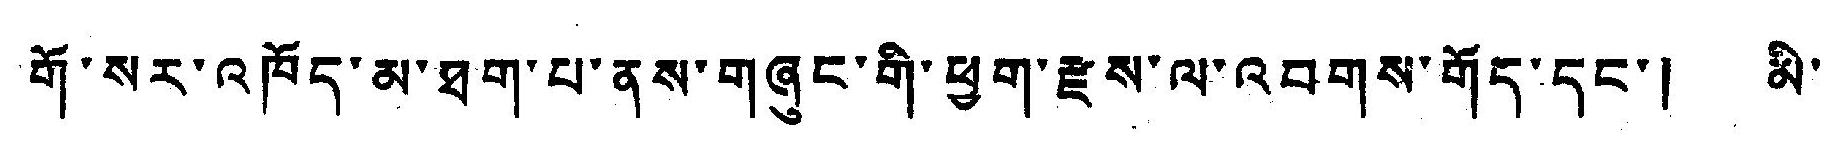གོ་སར་འཁོད་མ་ཐག་པ་ནས་གཞུང་གི་ཕྱག་རྫས་ལ་འབགས་གོད་དང་། མི་
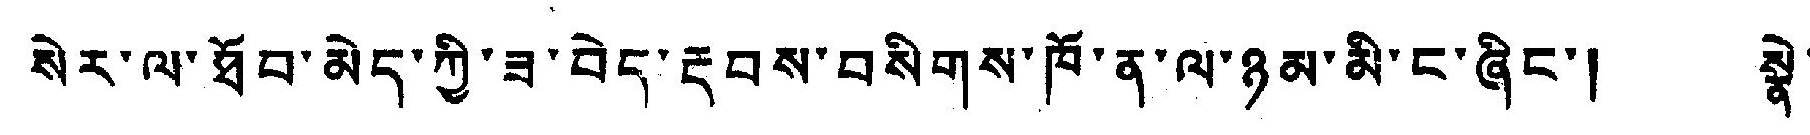སེར་ལ་ཐོབ་མེད་ཀྱི་ཟ་བྱེད་རྡབས་བསིགས་ཁོ་ན་ལ་ཉམ་མི་ང་ཞིང་། སྣེ་
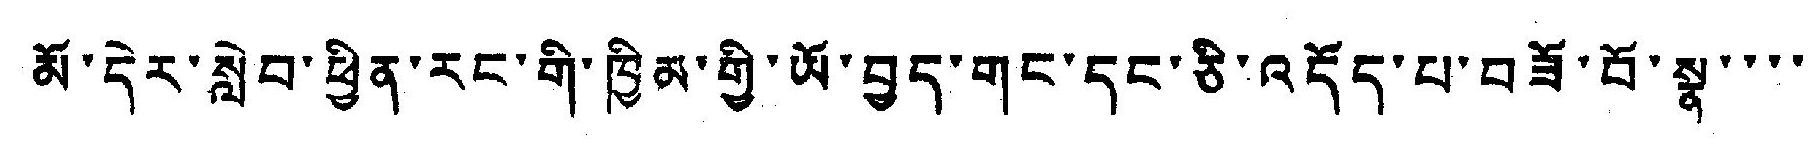མོ་དེར་སླེབ་ཕྱིན་རང་གི་ཁྱིམ་གྱི་ཡོ་བྱད་གང་དང་ཅི་འདོད་པ་བཟོ་བོ་སྣ་་་་
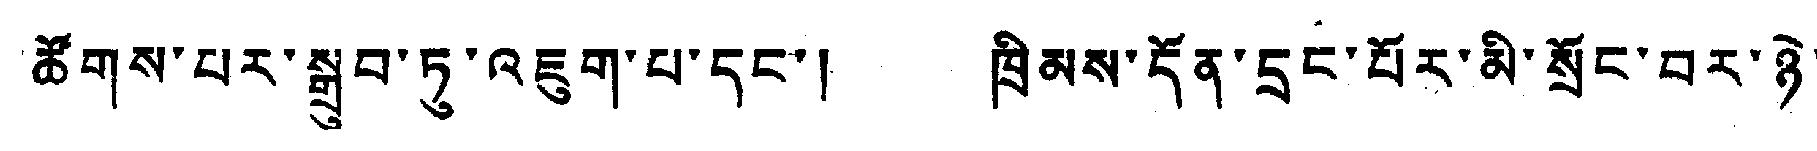ཚོགས་པར་སྒྲུབ་ཏུ་འཇུག་པ་དང་། ཁྲིམས་དོན་དྲང་པོར་མི་སྲོང་བར་ཉེ་
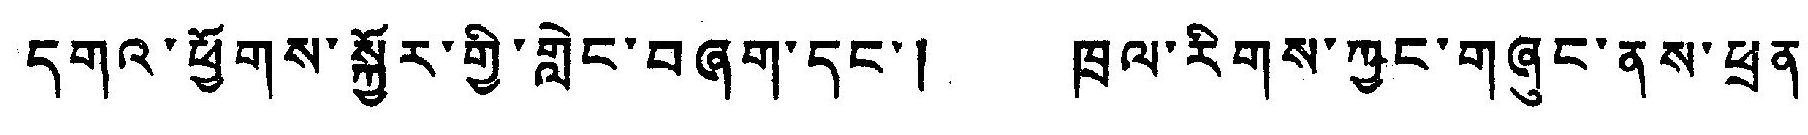དགའ་ཕྱོགས་སྐྱོར་གྱི་གླེང་བཞག་དང་། ཁྲལ་རིགས་ཀྱང་གཞུང་ནས་ཕྲན་
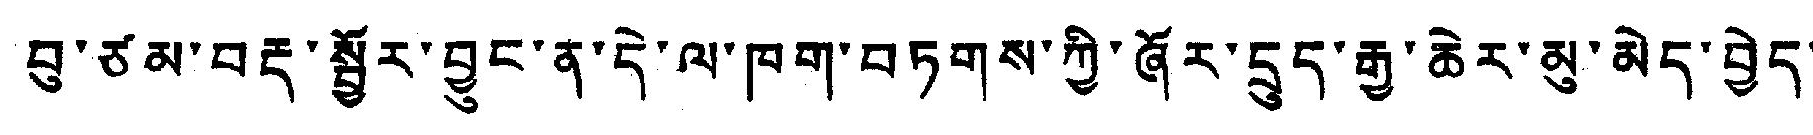བུ་ཙམ་བརྡ་སྦྱོར་བྱུང་ན་དེ་ལ་ཁག་བཏགས་ཀྱི་ཞོར་དྲུད་རྒྱ་ཆེར་མུ་མེད་བྱེད་
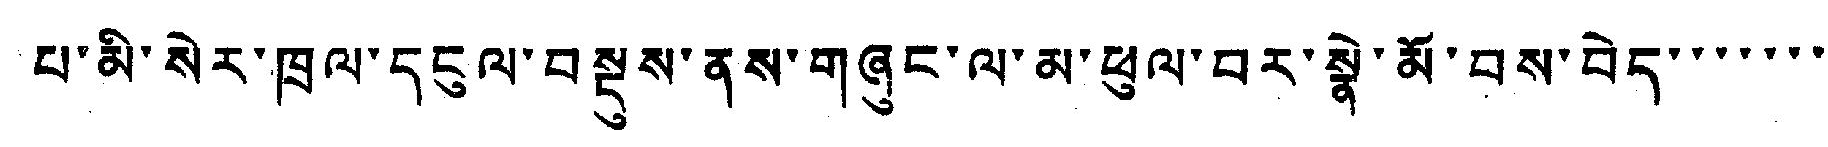པ་མི་སེར་ཁྲལ་དངུལ་བསྡུས་ནས་གཞུང་ལ་མ་ཕུལ་བར་སྣེ་མོ་བས་བེད་་་་་་་
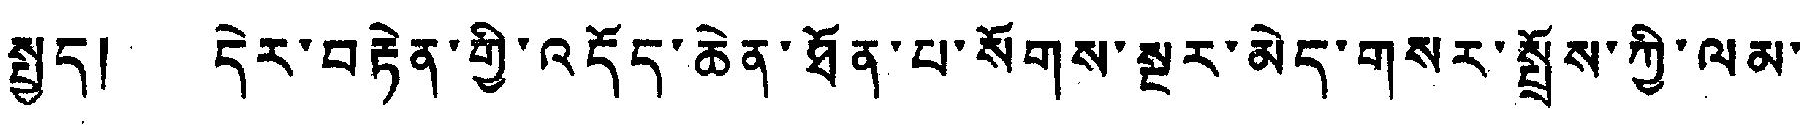སྤྱད། དེར་བརྟེན་གྱི་འདོད་ཆེན་ཐོན་པ་སོགས་སྔར་མེད་གསར་སྤྲོས་ཀྱི་ལམ་
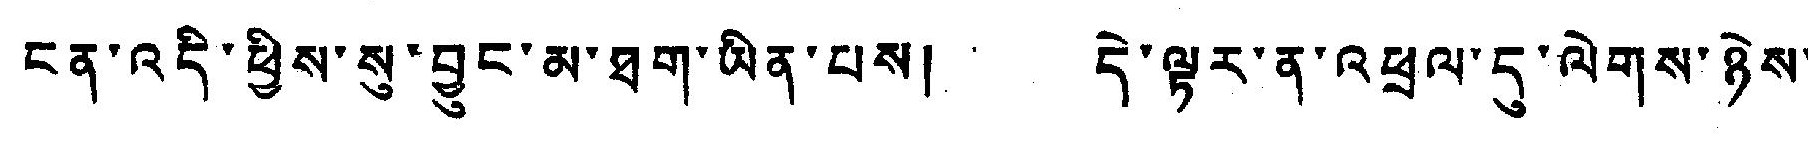ངན་འདི་ཕྱིས་སུ་བྱུང་མ་ཐག་ཡིན་པས། དེ་ལྟར་ན་འཕྲལ་དུ་ལེགས་ཉེས་
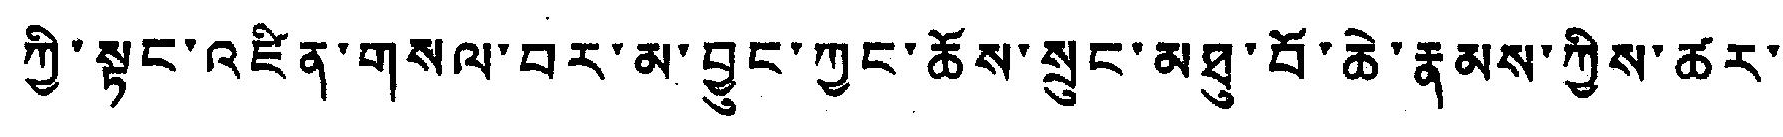ཀྱི་སྟང་འཛིན་གསལ་བར་མ་བྱུང་ཀྱང་ཆོས་སྲུང་མཐུ་བོ་ཆེ་རྣམས་ཀྱིས་ཚར་་
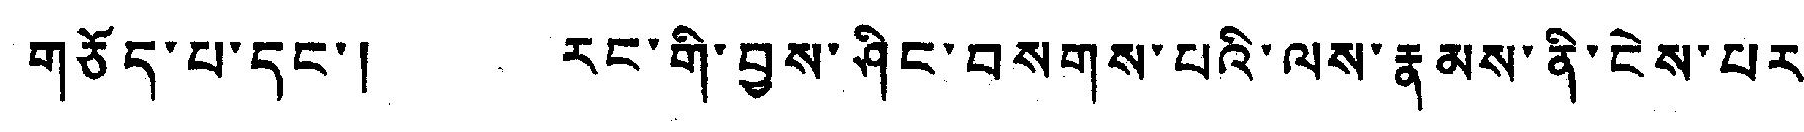གཅོད་པ་དང་། རང་གི་བྱས་ཤིང་བསགས་པའི་ལས་རྣམས་ནི་ངེས་པར་
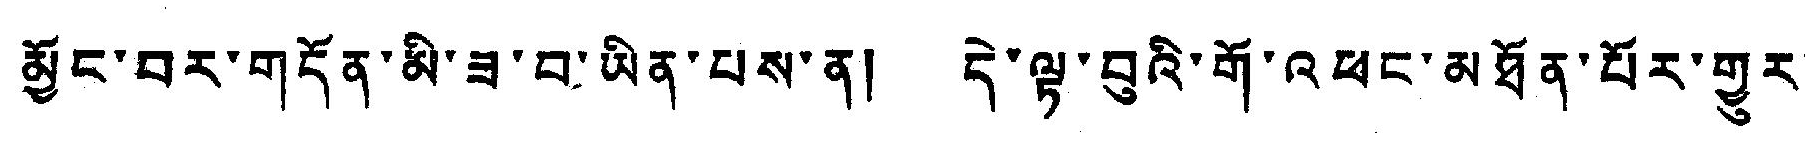མྱོང་བར་གདོན་མི་ཟ་བ་ཡིན་པས་ན། དེ་ལྟ་བུའི་གོ་འཕང་མཐོན་པོར་གྱུར་
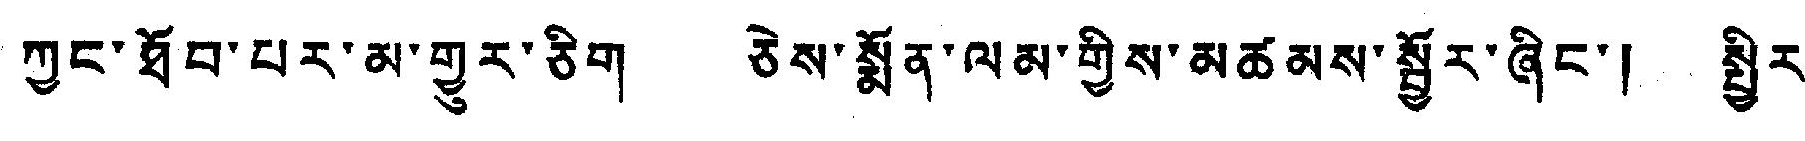ཀྱང་ཐོབ་པར་མ་གྱུར་ཅིག ཅེས་སྨོན་ལམ་གྱིས་མཚམས་སྦྱོར་ཞིང་། སྤྱིར་
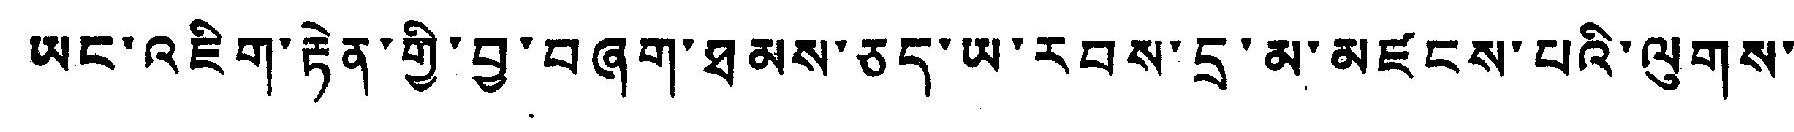ཡང་འཇིག་རྟེན་གྱི་བྱ་བཞག་ཐམས་ཅད་ཡ་རབས་དྲ་མ་མཛངས་པའི་ལུགས་་
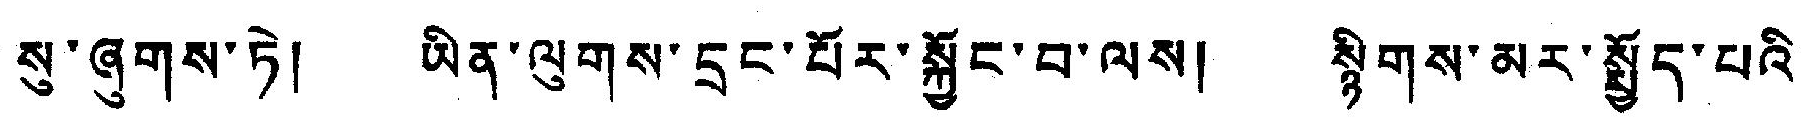སུ་ཞུགས་ཏེ། ཡིན་ལུགས་དྲང་པོར་སྐྱོང་བ་ལས། སྙིགས་མར་སྤྱོད་པའི་
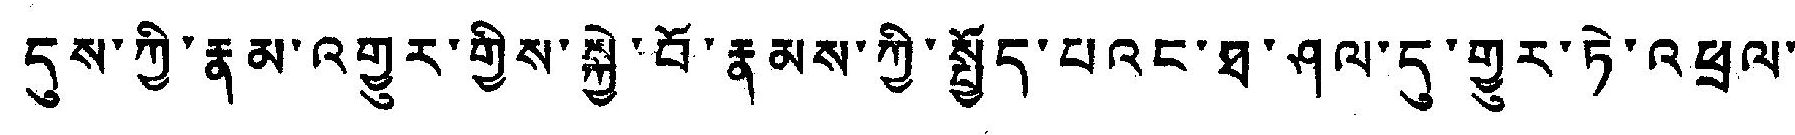དུས་ཀྱི་རྣམ་འགྱུར་གྱིས་སྐྱེ་བོ་རྣམས་ཀྱི་སྤྱོད་པའང་ཐ་ཤལ་དུ་གྱུར་ཏེ་འཕྲལ་
